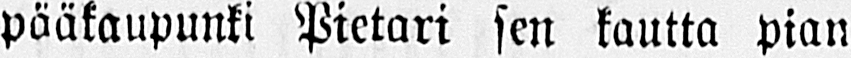pääkaupunki Pietari sen kautta pian
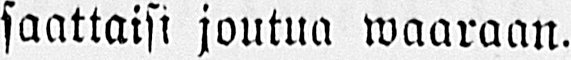saattaisi joutua waaraan.
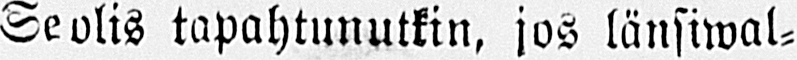Se olis tapahtunutkin, jos länsiwal-
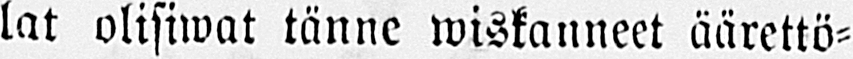lat olisiwat tänne wiskanneet äärettö-
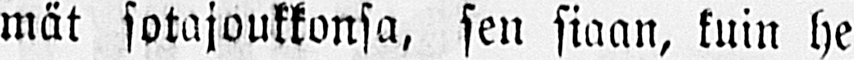mät sotajoukkonsa, sen siaan, kuin he
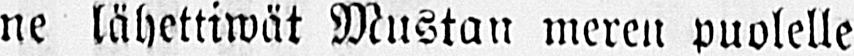ne lähettiwät Mustan meren puolelle
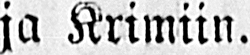ja Krimiin.
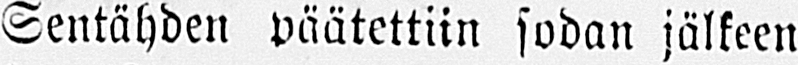Sentähden päätettiin sodan jälkeen
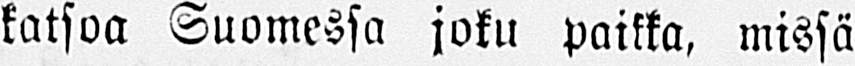katsoa Suomessa joku paikka, missä
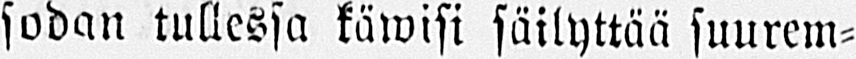sodan tullessa kuwisi säilyttää suurem-
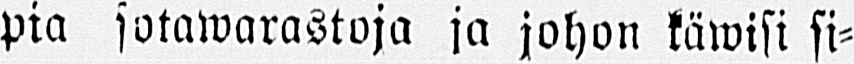pia sotawarastoja ja johon käwisi si-
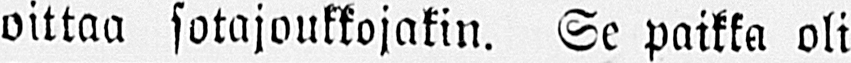oittaa sotajoukkojakin. Se paikka oli
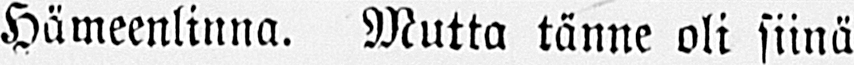Hämeenlinna. Mutta tänne oli siinä
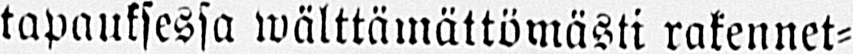tapauksessa wälttämättömästi rakennet-
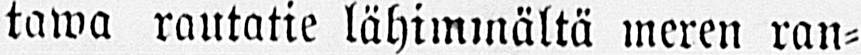tawa rautatie lähimmältä meren ran-
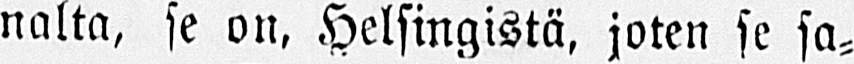nalta, se on, Helsingistä, joten se sa-
